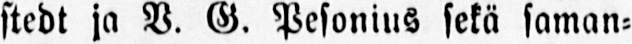stedt ja V. G. Pesonius sekä saman-
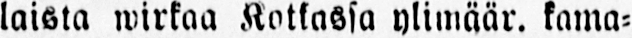laista wirkaa Kotkassa ylimäär. kama-
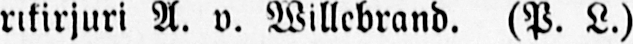rikirjuri A. v. Willebrand. (P. L.)
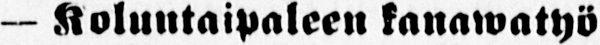— Koluntaipaleen kanawatyö
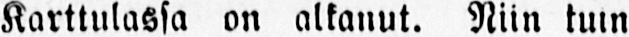Karttulassa on alkanut. Niin tuin
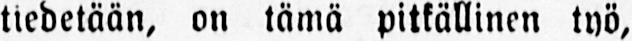tiedetään, on tämä pitkällinen työ,
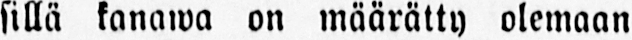sillä kanawa on määrätty olemaan
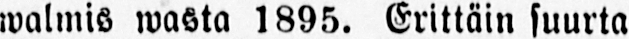walmis wasta 1895. Erittäin suurta
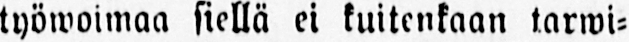työwoimaa siellä ei kuitenkaan tarwi-
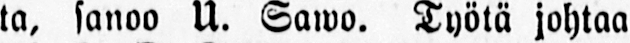ta, sanoo U. Sawo. Työtä johtaa
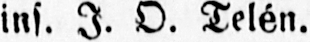ins. I. O. Telén.
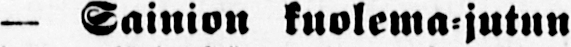— Sainion kuolema -jutun
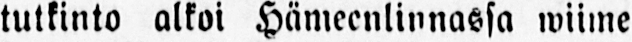tutkinto alkoi Hämeenlinnassa wiime
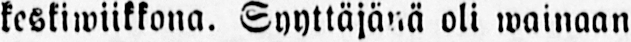keskiwiikkona. Syyttäjänä oli wainaan
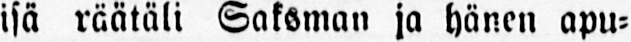isä räätäli Saksman ja hänen apu-
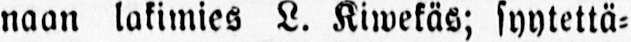naan lakimies L. Kiwekäs; syytettä-
